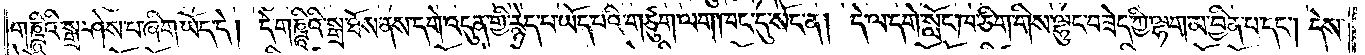གཎྜཱིའི་སྒྲ་ཤེས་པ་ཞིག་ཡོད་དེ། དེ་གཎྜཱིའི་སྒྲ་ཐོས་ནས་དགེ་འདུན་གྱི་རྙེད་པ་ཡོད་པའི་གཙུག་ལག་ཁང་དུ་སོང་ན། དེ་ལ་དགེ་སློང་ཁ་ཅིག་གིས་ལྷུང་བཟེད་ཀྱི་ལྷག་མ་བྱིན་པ་དང༌། དེས་
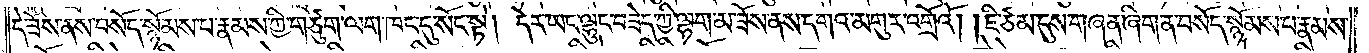དེ་ཟོས་ནས་བསོད་སྙོམས་པ་རྣམས་ཀྱི་གཙུག་ལག་ཁང་དུ་སོང་སྟེ། དེར་ཡང་ལྷུང་བཟེད་ཀྱི་ལྷག་མ་ཟོས་ནས་དགའ་མགུར་འགྲོའོ། །ཇི་ཙམ་དུས་གཞན་ཞིག་ན་བསོད་སྙོམས་པ་རྣམས་
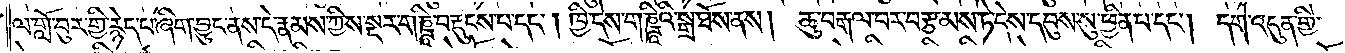ལ་གློ་བུར་གྱི་རྙེད་པ་ཞིག་བྱུང་ནས་དེ་རྣམས་ཀྱིས་སྔར་གཎྜཱི་བརྡུངས་པ་དང༌། ཁྱི་དེས་གཎྜཱིའི་སྒྲ་ཐོས་ནས། ཆུ་བརྒལ་བར་བརྩམས་ཏེ་དེས་དབུས་སུ་ཕྱིན་པ་དང༌། དགེ་འདུན་གྱི་
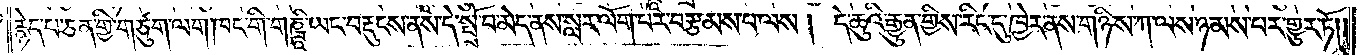རྙེད་པ་ཅན་གྱི་གཙུག་ལག་ཁང་གི་གཎྜཱི་ཡང་བརྡུངས་ནས་དེ་སྤྲོ་བ་མེད་ནས་སླར་ལོག་པར་བརྩམས་པ་ལས། དེ་ཆུའི་རྒྱུན་གྱིས་རིང་དུ་ཁྱེར་ནས་གཉིས་ཀ་ལས་ཉམས་པར་གྱུར་ཏོ༎
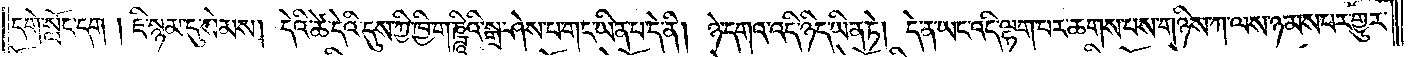དགེ་སློང་དག །ཇི་སྙམ་དུ་སེམས། དེའི་ཚེ་དེའི་དུས་ཀྱི་ཁྱི་གཎྜཱིའི་སྒྲ་ཤེས་པ་གང་ཡིན་པ་དེ་ནི། ཉེ་དགའ་འདི་ཉིད་ཡིན་ཏེ། དེ་ན་ཡང་འདི་ལྷག་པར་ཆགས་པས་གཉིས་ཀ་ལས་ཉམས་པར་གྱུར་
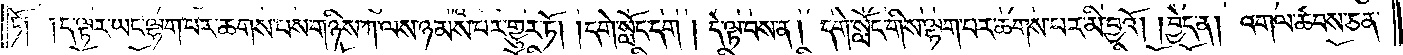ཏོ༑ ༑ད་ལྟར་ཡང་ལྷག་པར་ཆགས་པས་གཉིས་ཀ་ལས་ཉམས་པར་གྱུར་ཏོ། །དགེ་སློང་དག །དེ་ལྟ་བས་ན། དགེ་སློང་གིས་ལྷག་པར་ཆགས་པར་མི་བྱའོ། །བྱེད་ན། འགལ་ཚབས་ཅན་
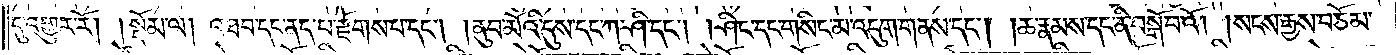དུ་འགྱུར་རོ། །སྡོམ་ལ། འཐབ་དང་ནད་པ་རྫོགས་པ་དང༌། །ནུབ་མོའི་དུས་དང་ཀ་ཤི་དང༌། །ཤིང་དང་གསིང་མ་འདུག་གནས་དང༌། །ཆ་རྣམས་དང་ནི་བསྒོ་བའོ། །སངས་རྒྱས་བཅོམ་
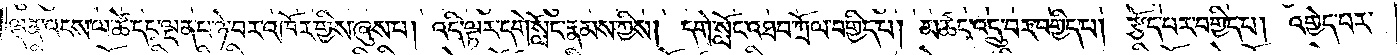ལྡན་འདས་ལ་ཚེ་དང་ལྡན་པ་ཉེ་བར་འཁོར་གྱིས་ཞུས་པ། འདི་ལྟར་དགེ་སློང་རྣམས་ཀྱིས། དགེ་སློང་འཐབ་ཀྲོལ་བགྱིད་པ། མཚང་འདྲུ་བར་བགྱིད་པ། རྩོད་པར་བགྱིད་པ། འགྱེད་པར་
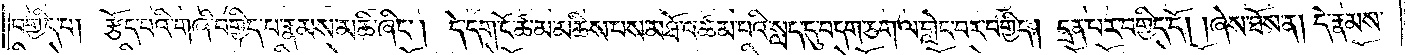བགྱིད་པ། རྩོད་པའི་གཞི་བགྱིད་པ་རྣམས་མཆི་ཞིང༌། དེ་དག་ངོ་ཚ་མ་མཆིས་པས་མཐོ་འཚམ་པའི་སླད་དུ་བདག་ཅག་ལ་གླེང་བར་བགྱིད། དྲན་པར་བགྱིད་དོ། །ཞེས་ཐོས་ན། དེ་རྣམས་
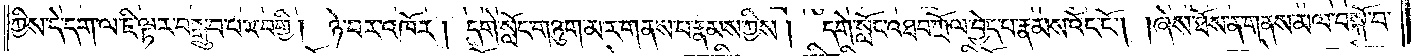ཀྱིས་དེ་དག་ལ་ཇི་ལྟར་བསྒྲུབ་པར་བགྱི། ཉེ་བར་འཁོར། དགེ་སློང་གཉུག་མར་གནས་པ་རྣམས་ཀྱིས། དགེ་སློང་འཐབ་ཀྲོལ་བྱེད་པ་རྣམས་འོང་ངོ༌། །ཞེས་ཐོས་ན་གནས་མལ་བསྐོ་བ་
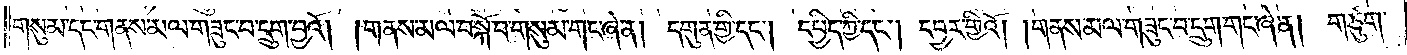གསུམ་དང་གནས་མལ་གཟུང་བ་དྲུག་བྱའོ། །གནས་མལ་བསྐོ་བ་གསུམ་གང་ཞེ་ན། དགུན་གྱི་དང༌། དཔྱིད་ཀྱི་དང༌། དབྱར་གྱིའོ། །གནས་མལ་གཟུང་བ་དྲུག་གང་ཞེ་ན། གཙུག་
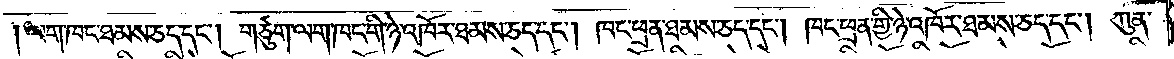ལག་ཁང་ཐམས་ཅད་དང༌། གཙུག་ལག་ཁང་གི་ཉེ་འཁོར་ཐམས་ཅད་དང༌། ཁང་ཕྲན་ཐམས་ཅད་དང༌། ཁང་ཕྲན་གྱི་ཉེ་འཁོར་ཐམས་ཅད་དང༌། ཀུན་
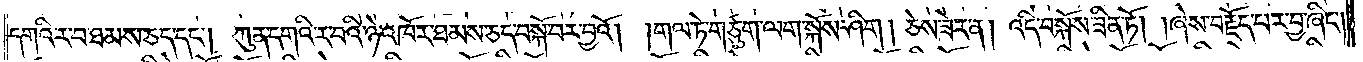དགའི་ར་བ་ཐམས་ཅད་དང༌། ཀུན་དགའི་ར་བའི་ཉེ་འཁོར་ཐམས་ཅད་བསྐོ་བར་བྱའོ། །གལ་ཏེ་གཙུག་ལག་སྐོས་ཤིག །ཅེས་ཟེར་ན། འདི་བསྐོས་ཟིན་ཏོ། །ཞེས་བརྗོད་པར་བྱ་ཞིང༌།
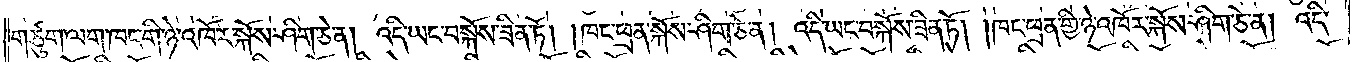གཙུག་ལག་ཁང་གི་ཉེ་འཁོར་སྐོས་ཤིག་ཅེ་ན། འདི་ཡང་བསྐོས་ཟིན་ཏོ། །ཁང་ཕྲན་སྐོས་ཤིག་ཅེ་ན། འདི་ཡང་བསྐོས་ཟིན་ཏོ། །ཁང་ཕྲན་གྱི་ཉེ་འཁོར་སྐོས་ཤིག་ཅེ་ན། འདི་
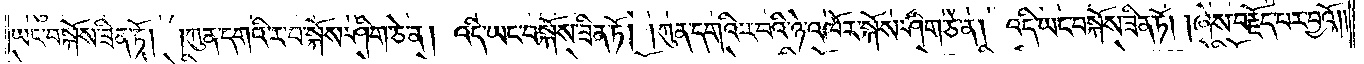ཡང་བསྐོས་ཟིན་ཏོ། །ཀུན་དགའི་ར་བ་སྐོས་ཤིག་ཅེ་ན། འདི་ཡང་བསྐོས་ཟིན་ཏོ། །ཀུན་དགའི་ར་བའི་ཉེ་འཁོར་སྐོས་ཤིག་ཅེ་ན། འདི་ཡང་བསྐོས་ཟིན་ཏོ། །ཞེས་བརྗོད་པར་བྱའོ༎
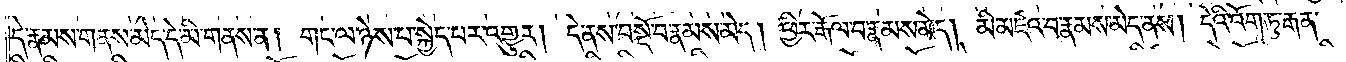དེ་རྣམས་གནས་མེད་དེ་མི་གནས་ན། གང་ལ་ཉེས་པ་སྐྱེད་པར་འགྱུར། དེ་ནས་བསྔོ་བ་རྣམས་མེད། ཕྱིར་རྒོལ་བ་རྣམས་མེད། མི་མཛའ་བ་རྣམས་མེད་ནས། དེའི་འོག་ཏུ་རྒན་
